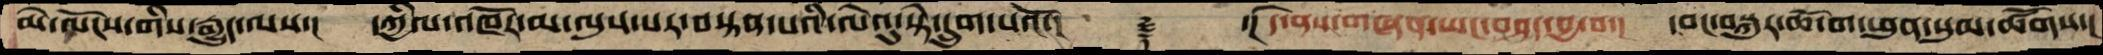མེ་ལོང་གིས་རྒྱུད་ལས་།  དཀྱིལ་འཁོར་མ་ལུས་པར་བསྟན་པའི་ལེའུ་སྟེ་དྲུག་པའོ་།  ࿑   ་།དེ་ནས་གཞན་ཡང་བཤད་བྱ་བ་།  དབང་བསྐུར་ཆོ་ག་ཕུན་སུམ་ཚོགས་།
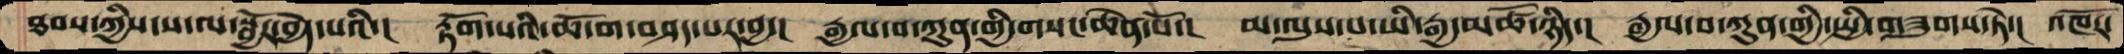ཐབས་ཀྱིས་ས་ལ་སྦྱོར་བྱེད་པའི་།  རྟོག་པའི་ཆོ་ག་བཤད་པར་བྱ་།  རྒྱལ་བ་ཀུན་གྱི་གསང་ཆེན་པོ་།  མ་ལུས་པ་ཡི་རྒྱ་མཚོ་ཉིད་།  རྒྱལ་བ་ཀུན་གྱི་སྤྱི་གཟུགས་ཏེ་།  འཁོར་
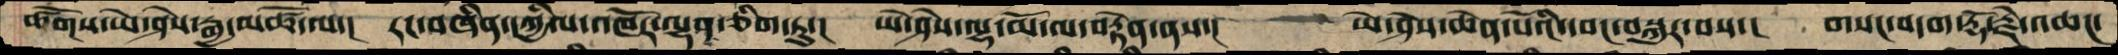ཚོགས་ཡེ་ཤེས་རྒྱ་མཚོ་ལ་།  རང་བཞིན་དཀྱིལ་འཁོར་ལྷན་ཅིག་ཏུ་།  ཡེ་ཤེས་ལྷ་མོ་ལ་བརྟེན་ནས་།   ཡེ་ཤེས་ཆེན་པོའི་དབང་བསྐུར་བས་།  གསང་བདག་རྡོ་རྗེ་འཆང་
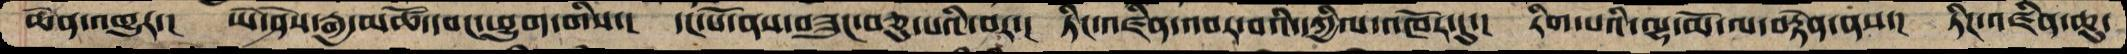ཆེན་འགྱུར་།  ཡེ་ཤེས་རྒྱ་མཚོ་དབང་ཕྱུག་གིས་།  དང་པོ་ནས་བཟུང་བཅུ་པའི་བར་།  ཏིང་འཛིན་འབར་བའི་དཀྱིལ་འཁོར་དུ་།  རིག་པའི་ལྷ་མོ་ལ་བརྟེན་ནས་།  ཏིང་འཛིན་ཆུ་
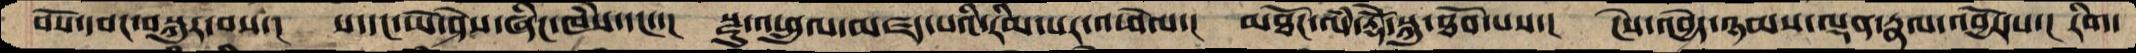བོས་དབང་བསྐུར་བས་།   ས་དང་ཡེ་ཤེས་ཞིང་ཁཾས་དང་་།  སྫུ་འཕྲུལ་མཛད་པའི་རིམ་པར་འཕེལ་།  མཐོང་ལཾ་རྡོེ་སྐུ་ཐོབ་པས་།  ངེས་འབྱེད་ཉམས་ལྡན་རྣལ་འབྱོར་པ་།  རིག་
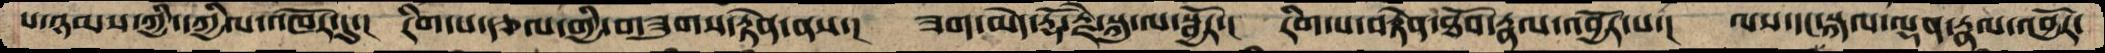པ་ཉམས་ཀྱི་དཀྱིལ་འཁོར་དུ་།  རིག་པ་རྩལ་གྱི་གཟུགས་རྟེན་ནས་།  ཟག་མེད་རྡོ་རྗེ་སྐུ་ལ་སྦྱོར་།  རིག་པ་བརྟེན་ཐོབ་རྣལ་འབྱོར་པ་།  ལས་དང་སྐལ་ལྡན་རྣལ་འབྱོར་
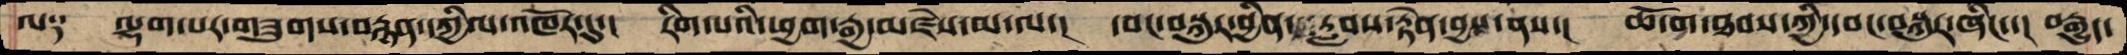ལ༑  ལྷག་པར་གཟུགས་བརྙན་དཀྱིལ་འཁོར་དུ་།  རིག་པའི་ཕྱག་རྒྱ་མཛེས་མ་ལ་།  དབང་བསྐུར་བྱིན་རླབས་རྟེན་བྱས་ནས་།  ཆོ་ག་ཐབས་ཀྱི་དབང་བསྐུར་ཞིང་་།  བརྒྱུད་
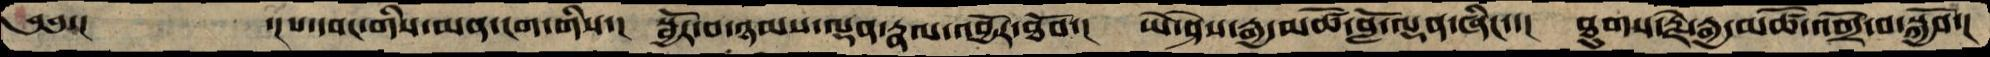༄༅་།        ་།ས་དབང་གིས་མན་ངག་གིས་།  སྦྱོར་བ་ཉམས་ལྡན་རྣལ་འབྱོར་ཐོབ་།  ཡེ་ཤེས་རྒྱ་མཚོ་བློ་ལྡན་ཞིང་་།  ཐུགས་རྗེ་རྒྱ་མཚོ་འགྲོ་བ་སྐྱོབ་།
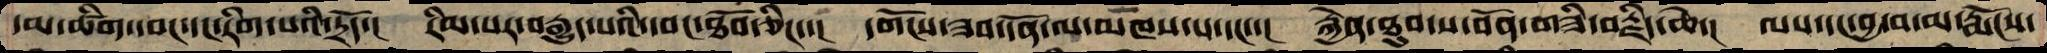དམ་ཚིག་དབང་དང་རིག་པའི་དྲོད་།  རིམ་པར་བརྒྱུད་པའི་དབང་ཐོབ་ཅིང་་།  དགོངས་ཟབ་དོན་ལ་མཁས་པ་དང་་།  རྐྱེན་ཐུབ་ས་བོན་གཟི་བརྗིད་ཆེ་།  ལས་དང་བྱ་བ་མ་རྨོངས་
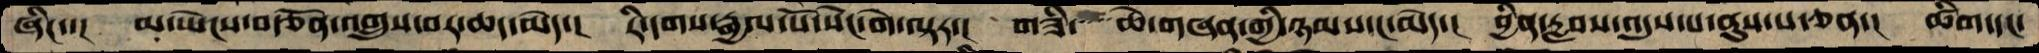ཞིང་་།  མ་ཡེངས་བརྩོན་འགྲུས་བར་ཆད་མེད་།  རི་དགས་རྒྱལ་པོ་སེང་གེ་ལྟར་།  གཟི་  ཆེ་གཞན་གྱི་ཉམས་ང་མེད་།  བྱིན་རླབས་འདུས་པ་ནུས་པ་ཅན་།  ཚིག་དང་
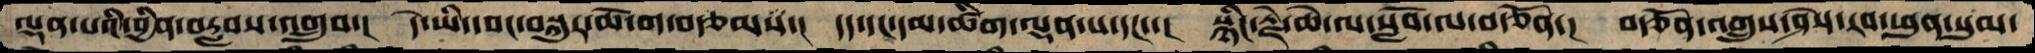ལྡན་པའི་བྱིན་བརླབས་འགྲུབ་། དེ་ཡི་དབང་བསྐུར་ཆོ་ག་བརྩམས་།  དད་དང་དམ་ཚིག་ལྡན་པ་དང་་།  སྙིང་རྗེ་ཆེ་ལ་སློབ་ལ་བརྩོན་།  བརྩོན་འགྲུབ་ཤེས་རབ་ཕུན་སུམ་
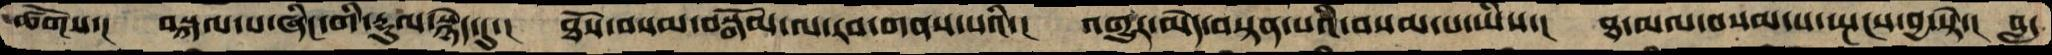ཚོགས་།  བསྐལ་པ་ཞིང་གི་རྡུལ་སྙེད་དུ་།  ཐོས་བསམ་བསྒོམ་ལ་རབ་གནས་པའི་།  འགྱུར་མེད་བསྟན་པའི་བསམ་པ་ཡིས་།  ཐ་མལ་བསམ་པ་སྤངས་བྱ་སྟེ་།  བླ་
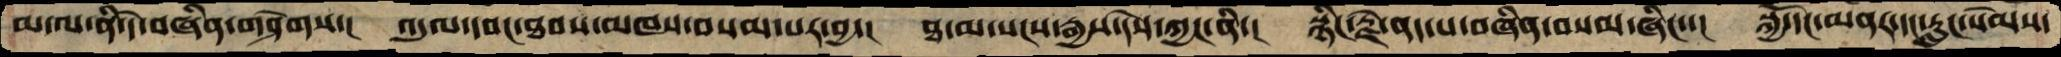མ་ལ་ནི་དེ་བཞིན་གཤེགས་།  འདུལ་དབང་ཐབས་མཁས་བསམ་པར་བྱ་།  ཐ་མ་སངས་རྒྱས་དེས་ཀྱང་ནི་།  སྙིང་རྗེ་ནད་པ་བཞིན་བསམ་ཞིང་་།  སྐྱོ་དང་མནར་དང་རླུང་སེམས་
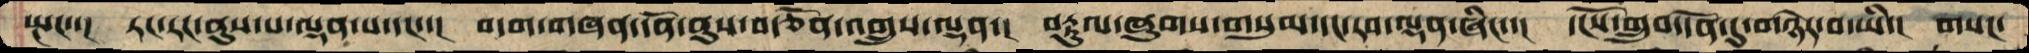སྤང་་།  རང་རང་ནུས་པ་ལྡན་པ་དང་་།  བདག་གཞན་དོན་ནུས་བརྩོན་འགྲུས་ལྡན་།  བརྟུལ་ཞུགས་གསུམ་དང་རབ་ལྡན་ཞིང་་།  དངོས་གྲུབ་དོན་དུ་གཉེར་བ་ཡི་།  གསང་
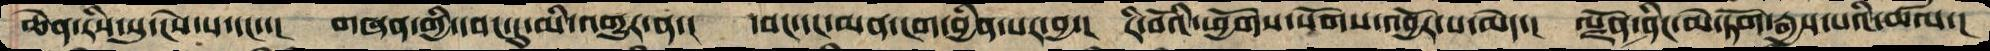ཆེན་རིས་སུ་ངེས་པ་དང་་། གཞན་གྱི་དབང་དུ་མི་འགྱུར་ན་།  དབང་དང་མན་ངག་བྱིན་པར་བྱ་།  རི་བོའི་ཕྱོགས་སོགས་འབྱོར་པ་མེད་། ལྗོན་ཤིང་མེ་ཏོག་རྒྱས་པའི་ཚལ་།
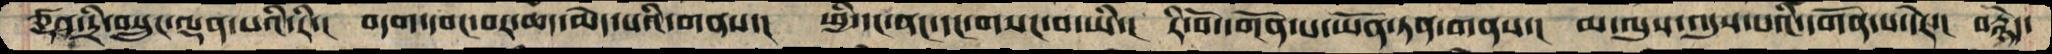ཙནྡ་དྲི་བསྲུང་ལྡན་པའི་རི་།  བདག་དབང་བར་ཆད་མེད་པའི་གནས་།  ཕྱི་དང་ནང་དང་གསང་བ་ཡི་།  རི་བོ་དགོན་པ་ཡོན་ཏན་གནས་།  མ་ལུས་འདུས་པའི་དགོན་པ་དེར་།  བརྙེད་
